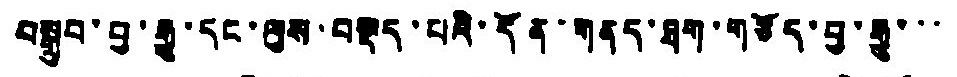བསྒྲུབ་བྱ་རྒྱུ་དང་ལུས་བསྡད་པའི་དོན་གནད་ཐག་གཅོད་བྱ་རྒྱུ་་་
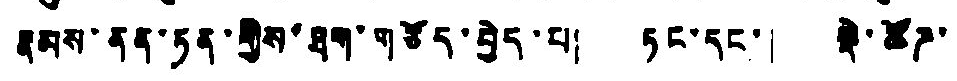རྣམས་ནན་ཏན་གྱིས་ཐག་གཅོད་བྱེད་པ། ཏང་དང་། སྡེ་ཚོཌ་
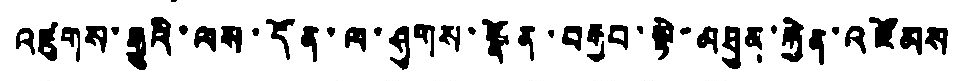འཛུགས་རྒྱུའི་ལས་དོན་ལ་ཤུགས་སྣོན་བརྒྱབ་སྟེ་མཐུན་རྐྱེན་འཛོམས
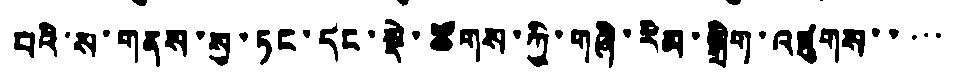བའི་ས་གནས་སུ་ཏང་དང་སྡེ་ཚོགས་ཀྱི་གཞི་རིམ་སྒྲིག་འཛུགས་་་་་
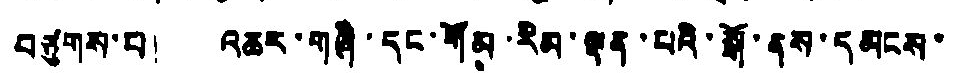བཙུགས་པ། འཆར་གཞི་དང་གོམ་རིམ་ལྡན་པའི་སྒོ་ནས་དམངས་
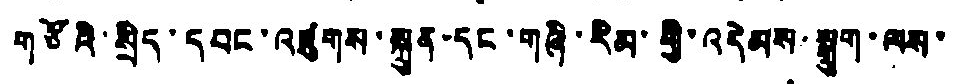གཙོའི་སྲིད་དབང་འཛུགས་སྐྲུན་དང་གཞི་རིམ་གྱི་འདེམས་སྒྲུག་ལས་
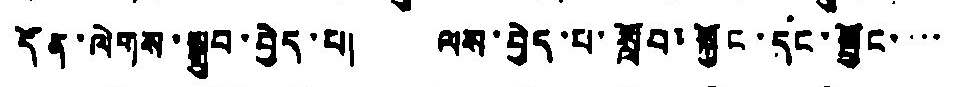དོན་ལེགས་སྒྲུབ་བྱེད་པ། ལས་བྱེད་པ་སློབ་སྐྱོང་དང་སྦྱོང་་་་
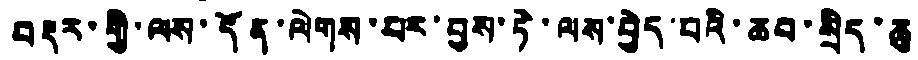བརྡར་གྱི་ལས་དོན་ལེགས་པར་བྱས་ཏེ་ལས་བྱེད་པའི་ཆབ་སྲིད་ཆུ
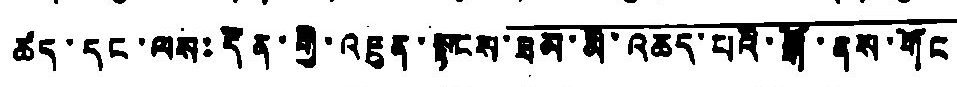ཚད་དང་ལས་དོན་གྱི་འཇུན་སྟངས་ཟམ་མི་འཆད་པའི་སྒོ་ནས་གོང
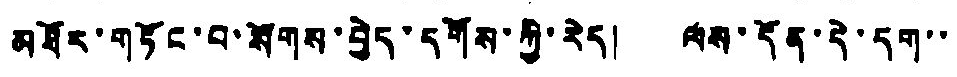མཐོར་གཏོང་བ་སོགས་བྱེད་དགོས་ཀྱི་རེད། ལས་དོན་དེ་དག་་
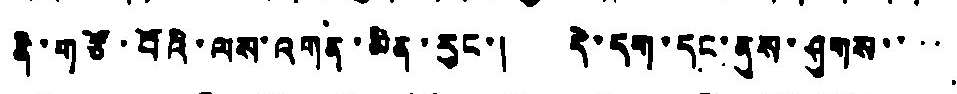ནི་གཙོ་བོའི་ལས་འགན་མིན་རུང་། དེ་དག་དང་ནུས་ཤུགས་་་་
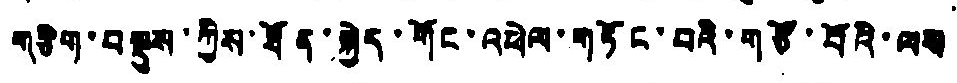གཅིག་བསྡུས་ཀྱིས་ཐོན་སྐྱེད་གོང་འཕེལ་གཏོང་བའི་གཙོ་བོའི་ལས
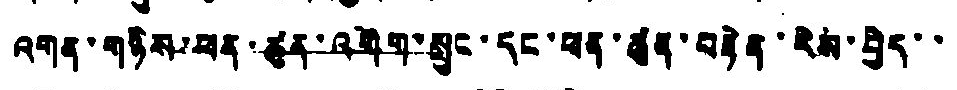འགན་གཉིས་ཕན་ཚུན་འགེག་སྲུང་དང་ཕན་ཚུན་བརྟེན་རེས་བྱེད་་
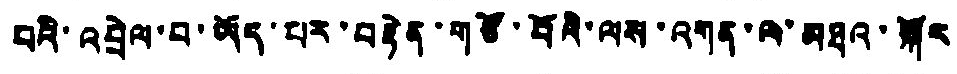པའི་འབྲེལ་བ་ཡོད་པར་བརྟེན་གཙོ་བོའི་ལས་འགན་ལ་མཐའ་སྐོར
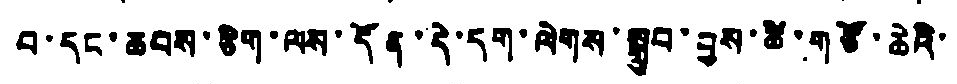བ་དང་ཆབས་ཅིག་ལས་དོན་དེ་དག་ལེགས་སྒྲུབ་བྱས་ཚེ་གཙོ་ཆེའི་
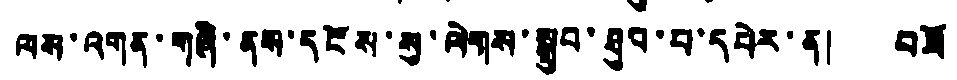ལས་འགན་གཞི་ནས་དངོས་སུ་ལེགས་སྒྲུབ་ཐུབ་པ་དཔེར་ན། བཟོ
